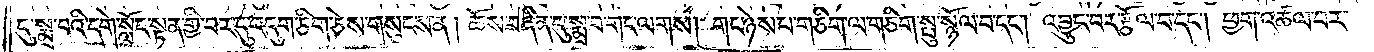དུ་སྨྲ་བའི་དགེ་སློང་སྟན་གྱི་བར་དུ་འདུག་ཅིག་ཅེས་གསུངས་ན། ཆོས་བཞིན་དུ་སྨྲ་བ་གང་ལགས། གང་ཉེས་པ་གཅིག་ལ་གཅིག་སྤུ་སྙོལ་བ་དང༌། འབྱུང་བར་རྩོལ་བ་དང༌། ཕྱག་འཚལ་བར་
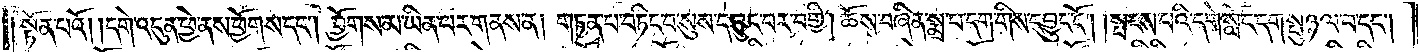སྟོན་པའོ། །དགེ་འདུན་ཕྱེ་ནས་ཕྱོགས་དང༌། ཕྱོགས་མ་ཡིན་པར་གནས་ན། གཏན་པ་བཏིང་བ་སུས་དབྱུང་བར་བགྱི། ཆོས་བཞིན་སྨྲ་པ་དག་གིས་དབྱུང་ངོ༌། །སྤངས་པའི་དགེ་སློང་དག་སྤུ་ཉལ་བ་དང༌།
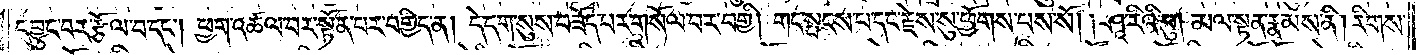དབྱུང་བར་རྩོལ་བ་དང༌། ཕྱག་འཚལ་བར་སྟོན་པར་བགྱིད་ན། དེ་དག་སུས་བཟོད་པར་གསོལ་བར་བགྱི། གང་སྤངས་པ་དང་རྗེས་སུ་ཕྱོགས་པས་སོ། །ཤཱ་རིའི་བུ། མལ་སྟན་རྣམས་ནི། རིགས་
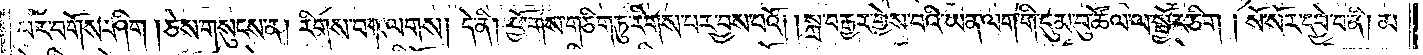པར་བགོས་ཤིག །ཅེས་གསུངས་ན། རིགས་པ་གང་ལགས། དེ་ནི། ཕྱོགས་གཅིག་ཏུ་རིགས་པར་བྱས་པའོ། །སྐྲ་བརྒྱར་གྱེས་པའི་ཡན་ལག་གི་དུམ་བུ་ཚོལ་ལ་སྦྱོར་ཅིག །སོ་སོར་དབྱེ་བ་ནི། མ་
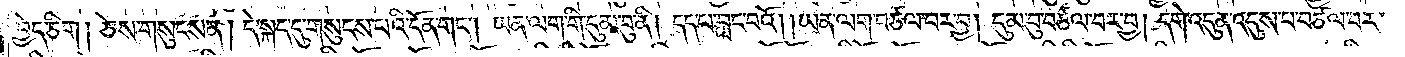བྱེད་ཅིག། ཅེས་གསུངས་ན། དེ་སྐད་དུ་གསུངས་པའི་དོན་གང༌། ཡན་ལག་གི་དུམ་བུ་ནི། དད་པ་བླང་བའོ། །ཡན་ལག་བཙལ་བར་བྱ། དུམ་བུ་བཙལ་བར་བྱ། དགེ་འདུན་འདུས་པ་བཙལ་བར་
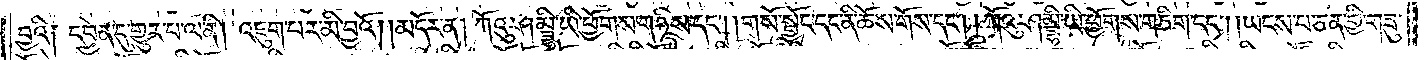བྱའི༑ དབྱེན་དུ་གྱུར་པ་ལ་ནི། འཇུག་པར་མི་བྱའོ། །མདོར་ན། ཀོའུ་ཤམྦྷི་ཡི་ཕྱོགས་གཉིས་དང༌། །གསོ་སྦྱོང་དང་ནི་ཆོས་གོས་དང༌། །ཀོའུ་ཤམྦྷི་ཡི་ཕྱོགས་གཅིག་དང༌། །ཡངས་པ་ཅན་གྱི་གཟུ་
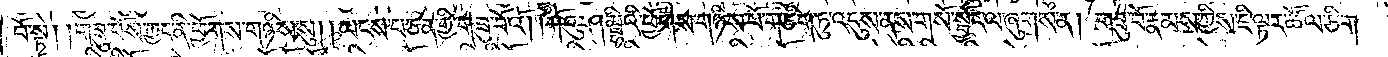བོ་སྟེ། །གཟུ་བོས་ཀྱང་ནི་ཕྱོགས་གཉིས་སུ། །ཡངས་པ་ཅན་གྱི་གཟུ་བོའོ། །ཀོའུ་ཤམྦྷིའི་ཕྱོགས་གཉིས་པོ་གཅིག་ཏུ་འདུས་ནས་གསོ་སྦྱོང་ལ་ཞུགས་ན། གཟུ་བོ་རྣམས་ཀྱིས་ཇི་ལྟར་ཚོལ་ཅིག །
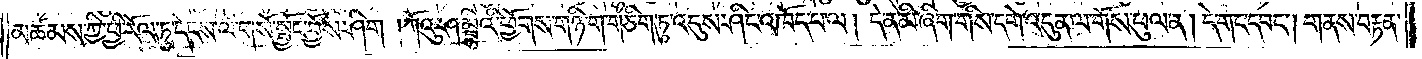མཚམས་ཀྱི་ཕྱི་རོལ་ཏུ་དེངས་ལ་གསོ་སྦྱོང་བྱོས་ཤིག །ཀོའུ་ཤམྦྷིའི་ཕྱོགས་གཉི་ག་གཅིག་ཏུ་འདུས་ཤིང་འཁོད་པ་ལ། དེ་ན་མི་ཞིག་གིས་དགེ་འདུན་ལ་གོས་ཕུལ་ན། དེ་གང་དབང༌། གནས་བརྟན་
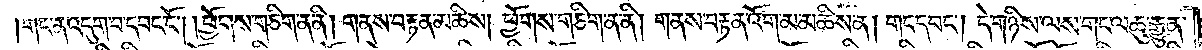གང་ན་འདུག་བ་དབང་ངོ༌། །ཕྱོགས་གཅིག་ན་ནི། གནས་བརྟན་མཆིས། ཕྱོགས་གཅིག་ན་ནི། གནས་བརྟན་འོག་མ་མཆིས་ན། གང་དབང༌། དེ་གཉིས་ལས་གང་ལ་ཆུ་རྒྱུན་
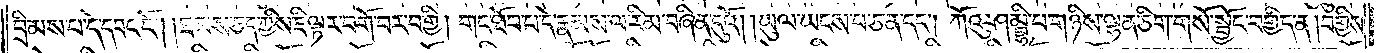བྲིམས་པ་དེ་དབང་ངོ༌། །ཐམས་ཅད་ཀྱིས་ཇི་ལྟར་བགོ་བར་བགྱི། གང་ཐོབ་པ་དེ་རྣམས་ལ་རིམ་བཞིན་དུའོ། །ཡུལ་ཡངས་པ་ཅན་དང༌། ཀོའུ་ཤམྦྷི་པ་གཉིས་ལྷན་ཅིག་གསོ་སྦྱོང་བགྱིད་ན། བགྱིས་
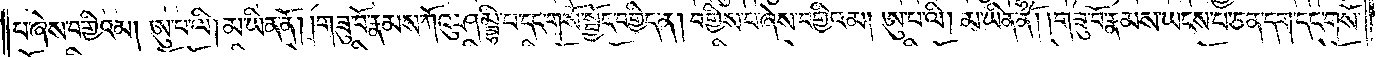པ་ཞེས་བགྱིའམ། ཨུ་པ་ལི། མ་ཡིན་ནོ། །གཟུ་བོ་རྣམས་ཀོའུ་ཤམྦྷི་པ་དང་གསོ་སྦྱོང་བགྱིད་ན། བགྱིས་པ་ཞེས་བགྱིའམ། ཨུ་པ་ལི། མ་ཡིན་ནོ། །གཟུ་བོ་རྣམས་ཡངས་པ་ཅན་དག་དང་གསོ་
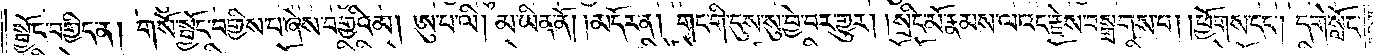སྦྱོང་བགྱིད་ན། གསོ་སྦྱོང་བགྱིས་པ་ཞེས་བགྱིའམ། ཨུ་པ་ལི། མ་ཡིན་ནོ། །མདོར་ན། གང་གིས་དུས་སུ་བྱེ་བར་གྱུར། །སྲིང་མོ་རྣམས་ལའང་རྗེས་བསྒྲགས་པ། །ཕྱོགས་དང༌། དགེ་སློང་
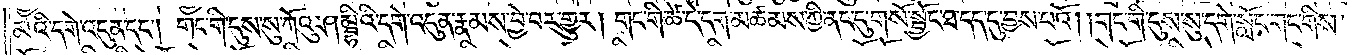མའི་དགེ་འདུན་དང༌། གང་གི་དུས་སུ་ཀོའུ་ཤམྦྷིའི་དགེ་འདུན་རྣམས་བྱེ་བར་གྱུར། གང་གི་ཚེ་དེ་དག་མཚམས་ཀྱི་ནང་དུ་གསོ་སྦྱོང་ཐ་དད་དུ་བྱས་པའོ། །གང་གི་དུས་སུ་དགེ་སློང་གང་གིས་
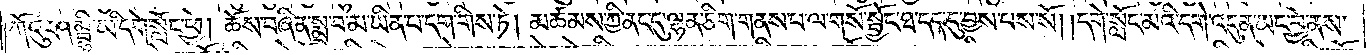ཀོའུ་ཤམྦྷི་ཡི་དགེ་སློང་ཕྱེ། ཆོས་བཞིན་སྨྲ་བ་མ་ཡིན་པ་དག་གིས་ཏེ། མཚམས་ཀྱི་ནང་དུ་ལྷན་ཅིག་གནས་པ་ལ་གསོ་སྦྱོང་ཐ་དད་དུ་བྱས་པས་སོ། །དགེ་སློང་མའི་དགེ་འདུན་ཡང་བྱེ་ནས་
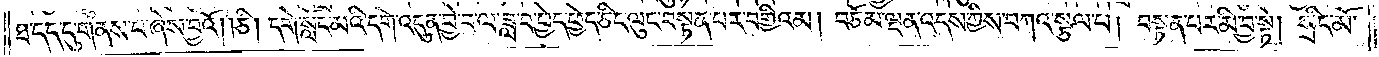ཐ་དད་དུ་གནས་པ་ཞེས་བྱའོ། །ཅི། དགེ་སློང་མའི་དགེ་འདུན་བྱེ་བ་ལ་ཟླ་བ་ཕྱེད་ཕྱེད་ཅིང་ལུང་བསྟན་པར་བགྱིའམ། བཅོམ་ལྡན་འདས་ཀྱིས་བཀའ་སྩལ་པ། བསྟན་པར་མི་བྱ་སྟེ། སྲིང་མོ་
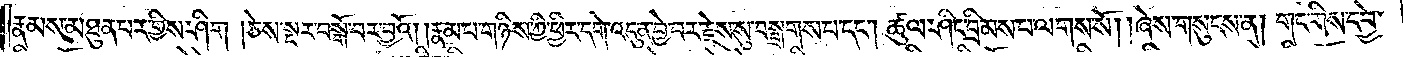རྣམས་མཐུན་པར་གྱིས་ཤིག །ཅེས་སྔར་བསྒོ་བར་བྱའོ། །རྣམ་པ་གཉིས་ཀྱི་ཕྱིར་དགེ་འདུན་བྱེ་བར་རྗེས་སུ་བསྒྲགས་པ་དང༌། ཚུལ་ཤིང་བྲིམས་པ་ལགས་སོ། །ཞེས་གསུངས་ན། གང་གིས་དབྱེ་
